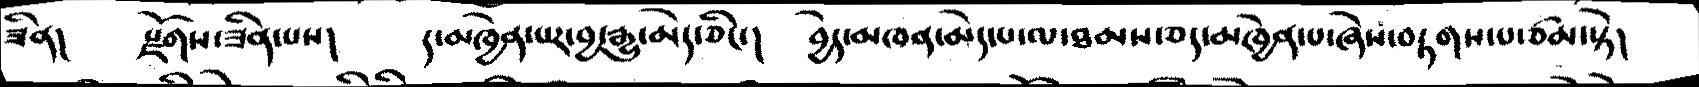ཟིན།  རྫོགས་ཟིན་པས།    །མཁྱེན་པར་བྱ་རྒྱུ་མེད་ཅིང་།    བྱེད་མཁན་མེད་པ་ལ་ཐམས་ཅད་མཁྱེན་པ་ཞེས་བརྟག་པ་ཙམ་སྟེ།
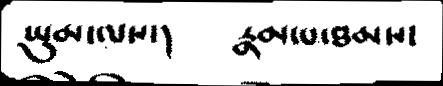ཡུམ་ལས་།    རྣམ་པ་ཐམས་
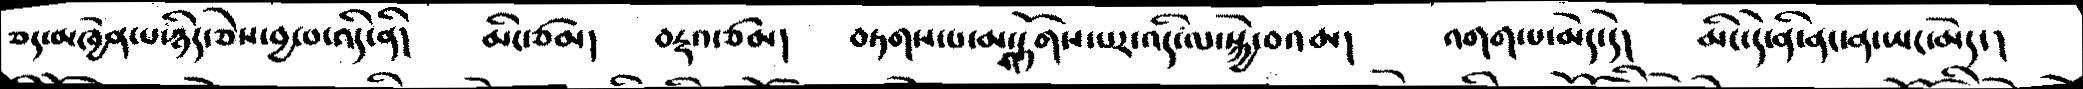ཅད་མཁྱེན་པ་ཉིད་ཅེས་བྱ་བ་འདི་ནི།   མིང་ཙམ།  བརྡའ་ཙམ།  བཏགས་པ་མ་གཏོགས་པར་འདི་ལ་སྐྱེ་བའམ།  འགག་པ་མེད་དེ།   མིང་དེ་ནི་ནང་ཡང་མེད་།
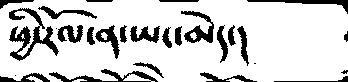ཕྱི་རོལ་ན་ཡང་མེད་།
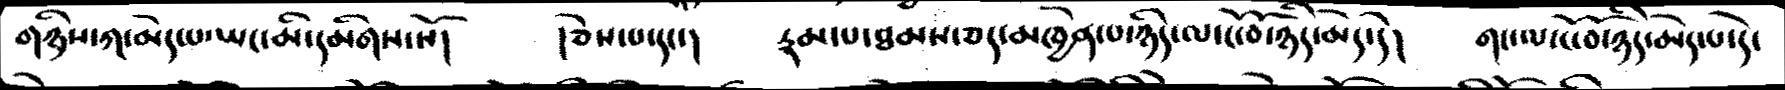གཉིས་ཀ་མེད་པ་ཡང་མི་དམིགས་སོ།   །ཅེས་པ་དང་།     རྟག་པ་ཐམས་ཅད་མཁྱེན་པ་ཉིད་ལ་ངོ་བོ་ཉིད་མེད་དེ།    གང་ལ་ངོ་བོ་ཉིད་མེད་པ་དེ་
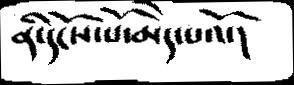ནི་དངོས་པོ་མེད་པའོ་།
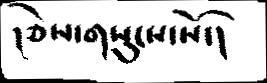།ཅེས་གསུངས་སོ་།
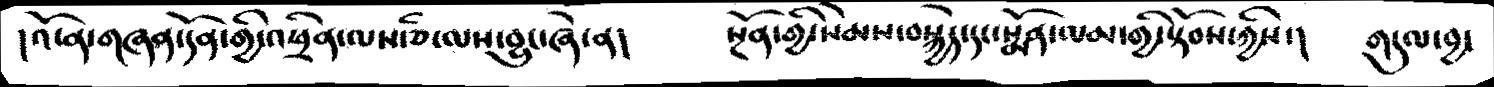།འོ་ན་གཞན་དོན་གྱི་འཕྲིན་ལས་ཅི་ལས་བྱུང་ཞེ་ན།   སྔོན་གྱི་སེམས་བསྐྱེད་དང་སྨོན་ལམ་གྱི་སྟོབས་ཀྱིས་།   གདུལ་བྱ་
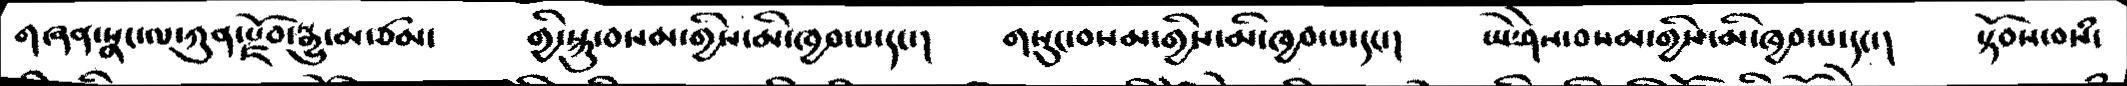གཞན་སྣང་ལ་ཀུན་སྫོབ་སྒྱུ་མ་ཙམ་    གྱི་སྐུ་བསམ་གྱིས་མི་ཁྱབ་པ་དང་།    གསུང་བསམ་གྱིས་མི་ཁྱབ་པ་དང་།     ཡེ་ཤེས་བསམ་གྱིས་མི་ཁྱབ་པ་དང་།  སྟོབས་བསཾ་
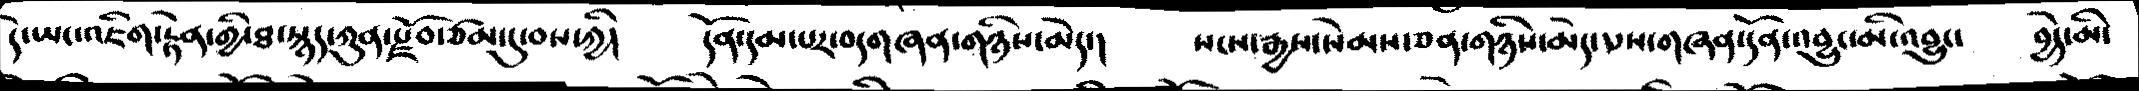དེ་ཡང་འཇིག་རྟེན་གྱི་ཐ་སྙད་ཀུན་སྫོབ་ཙམ་དུ་བས་ཀྱི།      དོན་དམ་པར་བདགཞན་གཉིས་མེད་།  སངས་རྒྱས་སེམས་ཅན་གཉིས་མེད་པས་གཞན་དོན་འབྱུང་མི་འབྱུང་   བྱེད་མི་
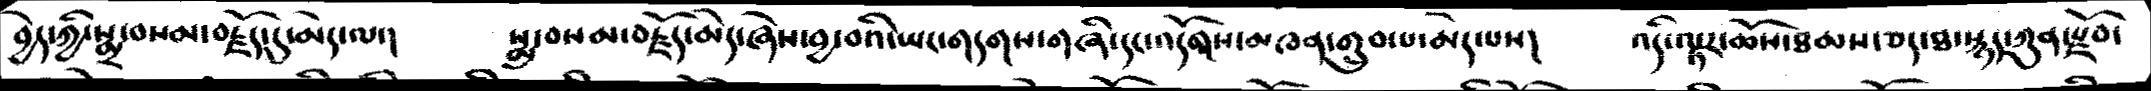བྱེད་ཀྱི་སྨྲ་བསམ་བརྗོད་དུ་མེད་ལ་།    སྨྲ་བསམ་བརྗོད་མེད་ཞེས་བྱ་བའི་ཡང་གདགས་གཞི་དང་འདོགས་མཁན་གྲུབ་པ་མེད་པས།    འདི་ལྟར་ཆོས་ཐམས་ཅད་ཐ་སྙད་ཀུན་རྫོབ་
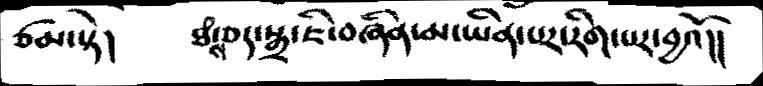ཙམ་སྟེ།     ཐཾས་ཅད་སྒྲ་ཇི་བཞིན་མ་ཡིན་པར་རིག་པར་བྱའོ།།
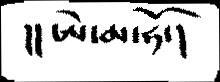།། ཨེ་མ་ཧོ་།
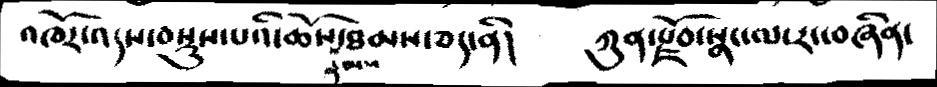འཁོར་འདས་བསྡུས་པའི་ཆོས་རྣམས་ཐམས་ཅད་ནི།    ཀུན་རྫོབ་སྣང་ལ་རང་བཞིན་
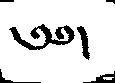༄༅།
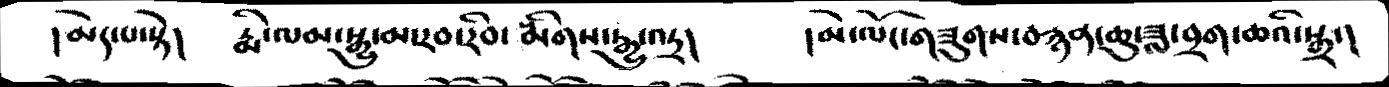།མེད་པ་སྟེ།    རྨི་ལམ་སྒྱུ་མ་རབ་རིབ་རྨྲིགས་རྒྱུ་འདྲ།       །མེ་ལོང་གཟུགས་བརྙན་ཆུ་ཟླ་བྲག་ཆའི་སྒྲ་།
